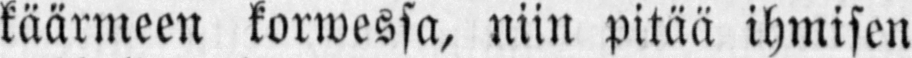käärmeen korwessa, niin pitää ihmisen
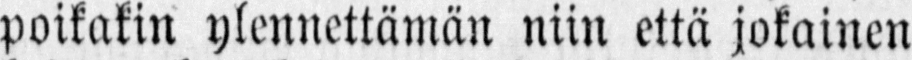poikakin ylennettämän niin että jokainen
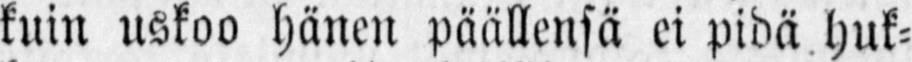kuin uskoo hänen päällensä ei pidä huk-
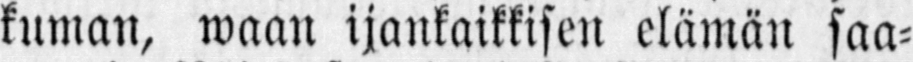kuman, waan ijankaikkisen elämän saa-
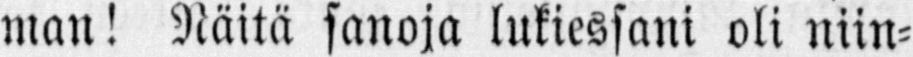man! Näitä sanoja lukiessani oli niin-
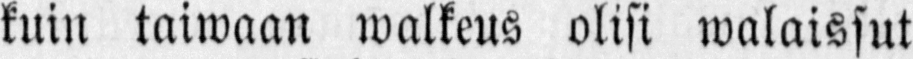kuin taiwaan walkeus olisi walaissut
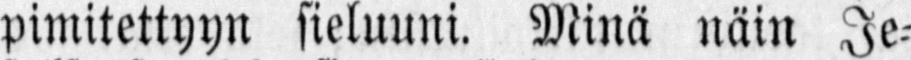pimitettyyn sieluuni. Minä näin Je-
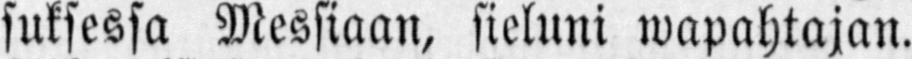suksessa Messiaan, sieluni wapahtajan.
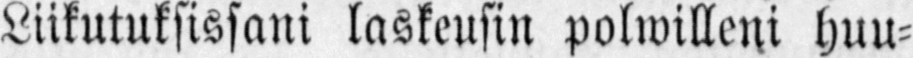Liikutuksessani laskeusin polwilleni huu-
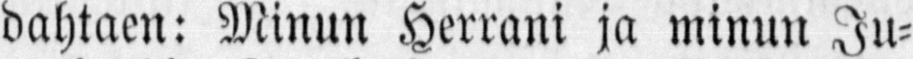dahtaen: Minun Herrani ja minun Ju-
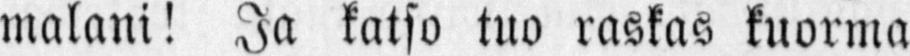malani! Ja katso tuo raskas kuorma
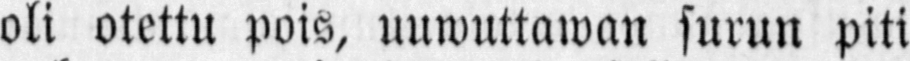oli otettu pois, uuwuttawan surun piti
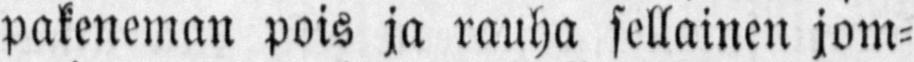pakeneman pois ja rauha sellainen jom-
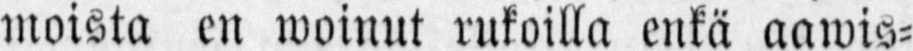moista en woinut rukoilla enkä aawis-
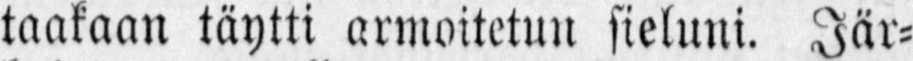taakaan täytti armoitetun sieluni. Jär-
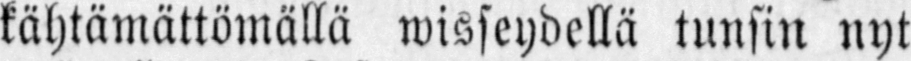kähtämättömällä wisseydellä tunsin nyt
